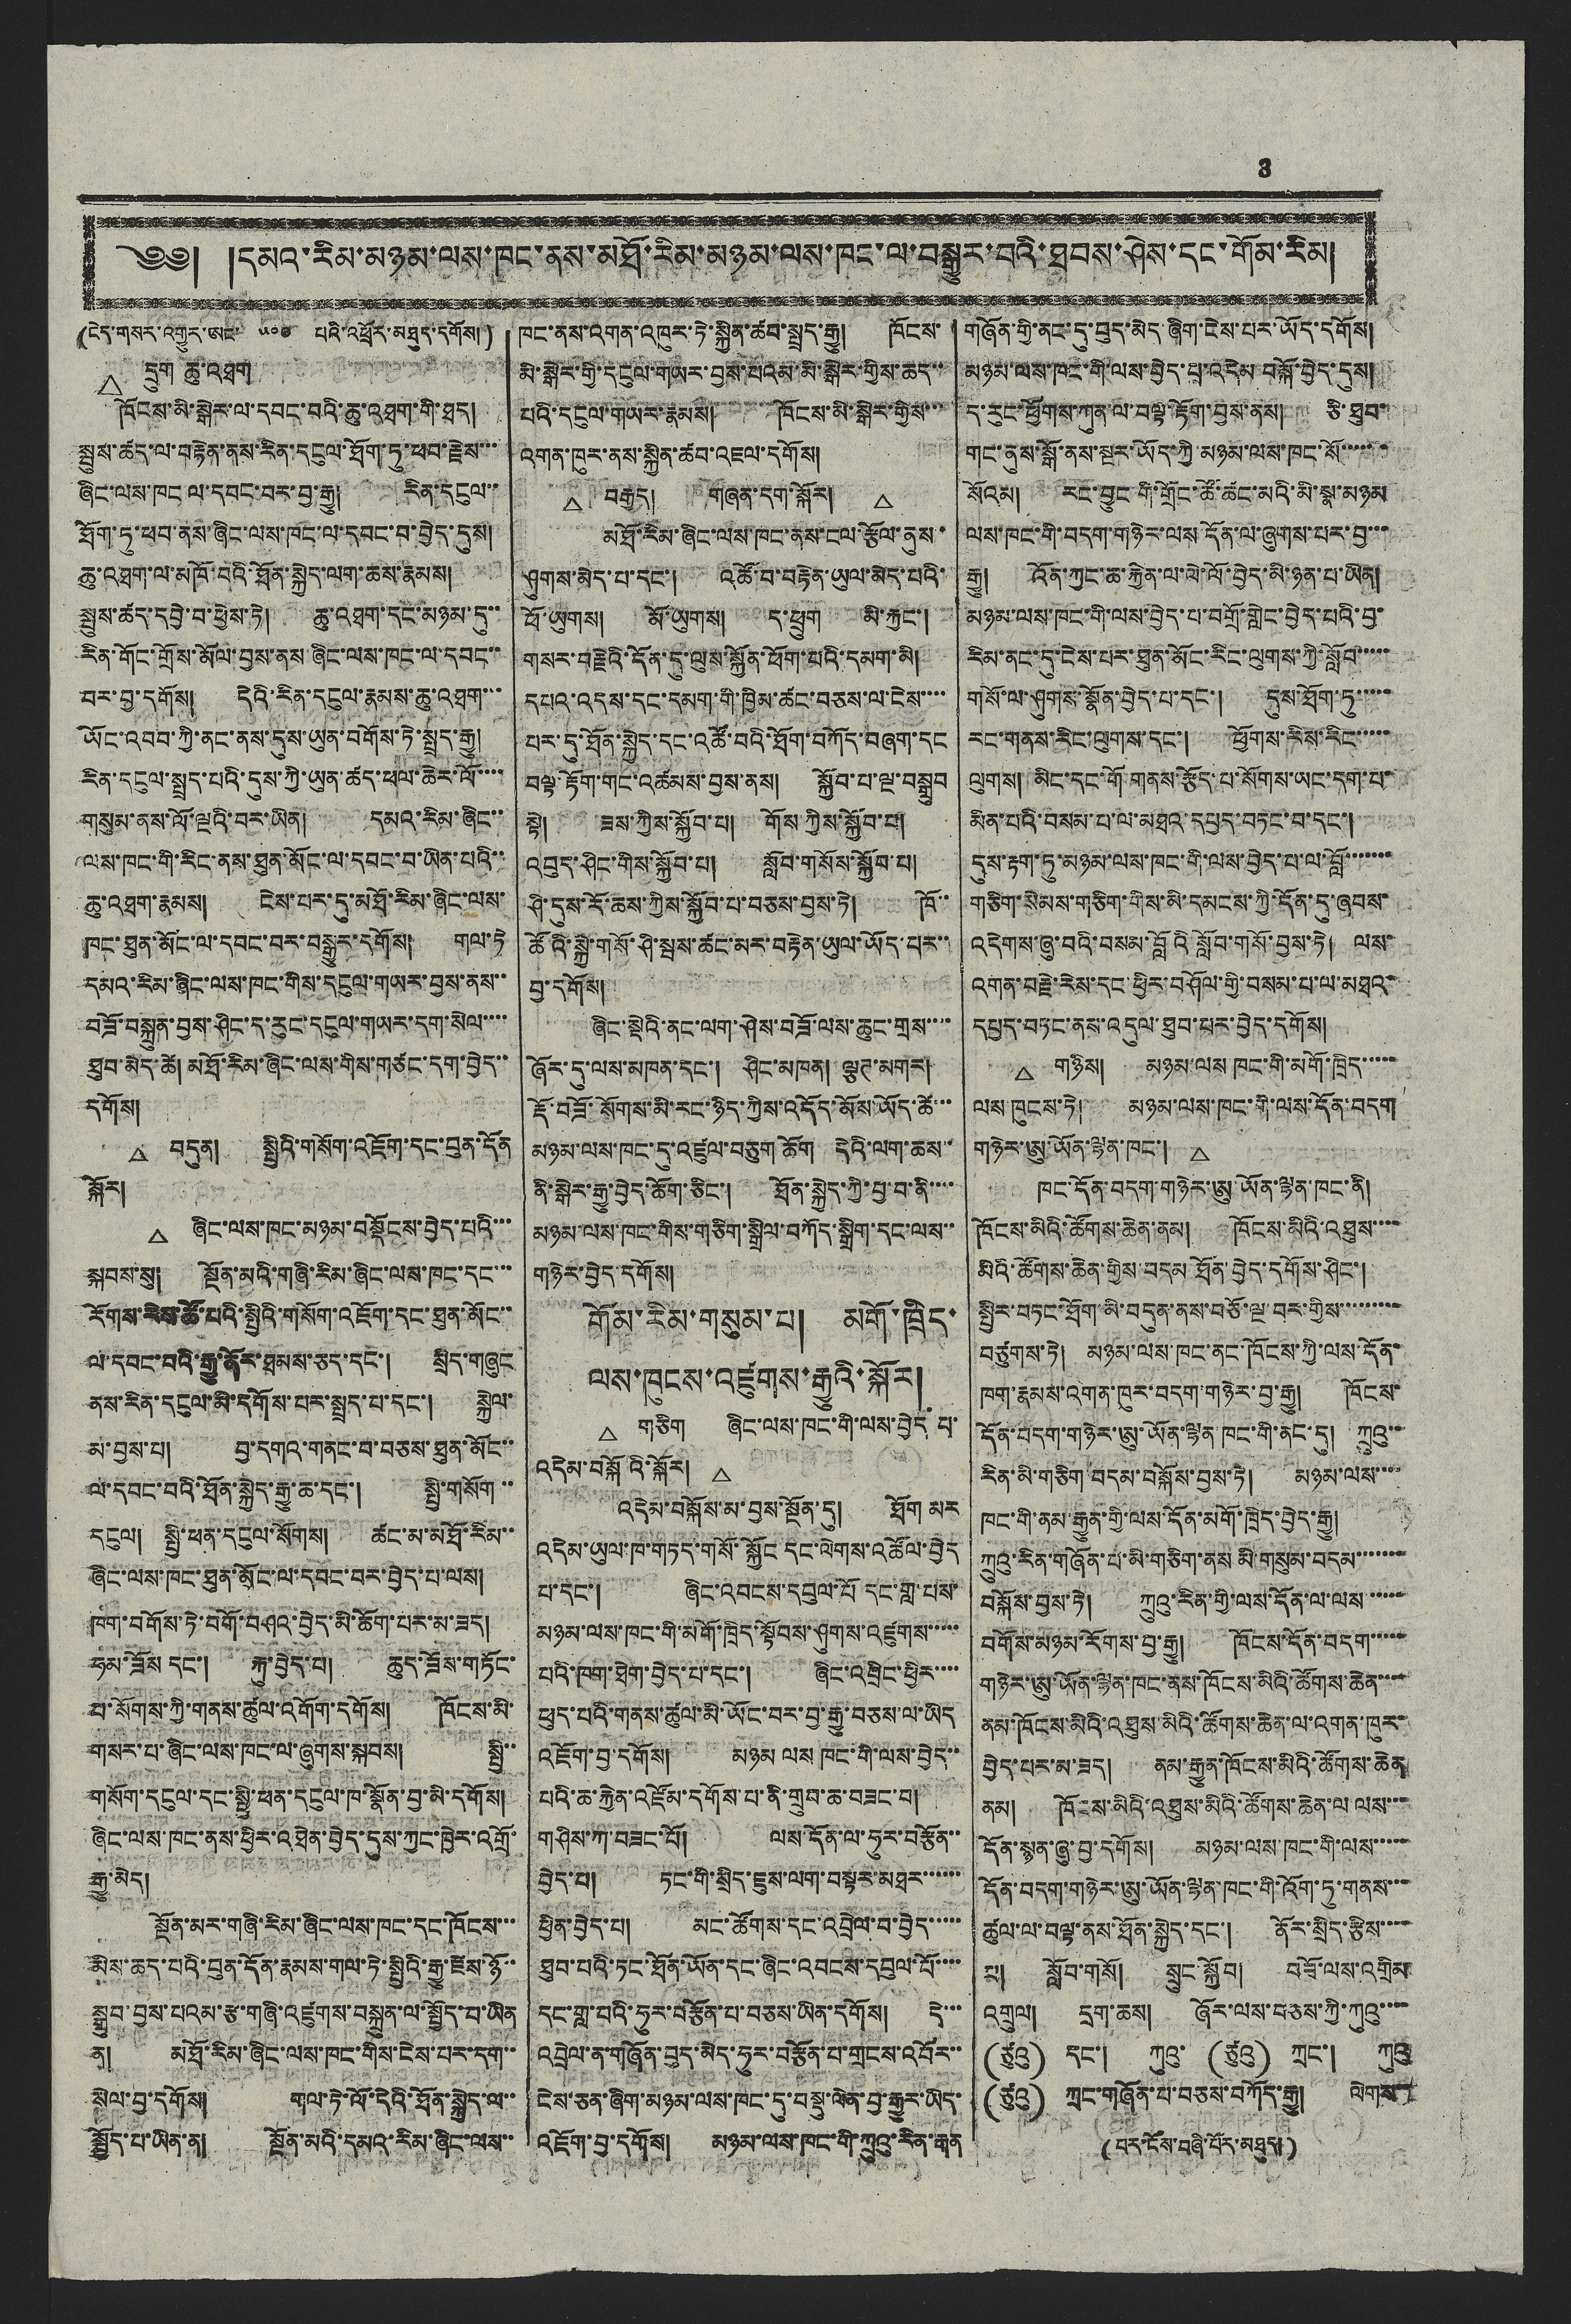3
༄༅། །དམའ་རིམ་མཉམ་ལས་ཁང་ནས་མཐོ་རིམ་མཉམ་ལས་ཁང་ལ་བསྒྱུར་བའི་ཐབས་ཤེས་དང་གོམ་རིམ།
(ངེད་གསར་འགྱུར་ཨང་ ༥༠༩ པའི་འཕྲོར་མཐུད་དགོས།)
△ དྲུག ཆུ་འཐག
ཁོངས་མི་སྒེར་ལ་དབང་བའི་ཆུ་འཐག་གི་ཐད།
སྤུས་ཚད་ལ་བརྟེན་ནས་རིན་དངུལ་ཐོག་ཏུ་ཕབ་རྗེས་་་
ཞིང་ལས་ཁང་ལ་དབང་བར་བྱ་རྒྱུ། རིན་དངུལ་
ཐོག་ཏུ་ཕབ་ནས་ཞིང་ལས་ཁང་ལ་དབང་བ་བྱེད་དུས།
ཆུ་འཐག་ལ་མཁོ་བའི་ཐོན་སྐྱེད་ལག་ཆས་རྣམས།
སྤུས་ཚད་དབྱེ་བ་ཕྱེས་ཏེ། ཆུ་འཐག་དངོ་མཉམ་དུ་་
རིན་གོང་གྲོས་མོལ་བྱས་ནས་ཞིང་ལས་ཁང་ལ་དབང་་
བར་བྱ་དགོས། དེའི་རིན་དངུལ་རྣམས་ཆུ་འཐག་་་
ཡོང་འབབ་ཀྱི་ནང་ནས་དུས་ཡུན་བགོས་ཏེ་སྤྲད་རྒྱུ།
རིན་དངུལ་སྤྲད་པའི་དུས་ཀྱི་ཡུན་ཚད་ཕལ་ཆེར་ལོ་་་་
གསུམ་ནས་ལོ་ལྔའི་བར་ཡིན། དམའ་རིམ་ཞིང་་
ལས་ཁང་གི་རིང་ནས་ཐུན་མོང་ལ་དབང་བ་ཡིན་པའི་་
ཆུ་འཐག་རྣམས། ངེས་པར་དུ་མཐོ་རིམ་ཞིང་ལས་
ཁང་ཐུན་མོང་ལ་དབང་བར་བསྒྱུར་དགོས། གལ་ཏེ
དམའ་རིམ་ཞིང་ལས་ཁང་གིས་དངུལ་གཡར་བྱས་ནས་་
བཟོ་བསྐྲུན་བྱས་ཤིང་ད་རུང་དངུལ་གཡར་དག་སེལ་་་་
ཐུབ་མེད་ཚེ། མཐོ་རིམ་ཞིང་ལས་གིས་གཙང་དག་བྱེད་་
དགོས།
△ བདུན། སྤྱིའི་གསོག་འཇོག་དང་བུན་དོན
སྐོར།
△ ཞིང་ལས་ཁང་མཉམ་བསྡོངས་བྱེད་པའི་་་
སྐབས་སུ། སྔོན་མའི་གཞི་རིམ་ཞིང་ལས་ཁང་དང་་་
རོགས་རིས་ཚོ་པའི་སྤྱིའི་གསོག་འཇོག་དང་ཐུན་མོང་་
ལ་དབང་བའི་རྒྱུ་ནོར་ཐམས་ཅད་དང་། སྲིད་གཞུང
ནས་རིན་དངུལ་མི་དགོས་པར་སྤྲད་པ་དང་། སྐྱེལ་
མ་བྱས་པ། བྱ་དགའ་གནང་བ་བཅས་ཐུན་མོང་་
ལ་དབང་བའི་ཐོན་སྐྱེད་རྒྱུ་ཆ་དང་། སྤྱི་གསོག་་
དངུལ། སྤྱི་ཕན་དངུལ་སོགས། ཚང་མ་མཐོ་རིམ་་
ཞིང་ལས་ཁང་ཐུན་མོང་ལ་དབང་བར་བྱེད་པ་ལས།
ཁག་བགོས་ཏེ་བགོ་བཤའ་བྱེད་མི་ཆོག་པར་མ་ཟད།
ཧམ་ཟོས དང་། རྐུ་བྱེད་པ། ཆུད་ཟོས་གཏོང་
པ་སོགས་ཀྱི་གནས་ཚུལ་འགོག་དགོས། ཁོངས་མི་
གསར་པ་ཞིང་ལས་ཁང་ལ་ཞུགས་སྐབས། སྤྱི་་
གསོག་དངུལ་དང་སྤྱི་ཕན་དངུལ་ཁ་སྣོན་བྱ་མི་དགོས།
ཞིང་ལས་ཁང་ནས་ཕྱིར་འཐེན་བྱེད་དུས་ཀྱང་ཁྱེར་འགྲོ་
རྒྱུ་མེད།
སྟོན་མར་གཞི་རིམ་ཞིང་ལས་ཁང་དང་ཁོངས་་་
མིས་ཆད་པའི་བུན་དོན་རྣམས་གལ་ཏེ་སྤྱིའི་རྒྱུ་ཛེས་ཉོ་
སྒྲུབ་བྱས་པའམ་རྩ་གཞི་འཛུགས་བསྐྲུན་ལ་སྤྱོད་པ་ཡིན
ན། མཐོ་རིམ་ཞིང་ལས་ཁང་གིས་ངེས་པར་དག་་
སེལ་བྱ་དགོས། གལ་ཏེ་ལོ་དེའི་ཐོན་སྐྱེད་ལ་་
སྤྱོད་པ་ཡིན་ན། སྔོན་མའི་དམའ་རིམ་ཞིང་ལས་་
ཁང་ནས་འགན་འབུར་ཏེ་སྐྱིན་ཚབ་སྤྲད་རྒྱུ། ཁོངས་
མི་སྒེར་གྱི་དངུལ་གཡར་བྱས་པའམ་མི་སྒེར་གྱིས་ཚད་་
པའི་དངུལ་གཡར་རྣམས། ཁོངས་མི་སྒེར་གྱིས་་་
འགན་ཁུར་ནས་སྐྱིན་ཚབ་འཇལ་དགོས།
△ བརྒྱད། གཞན་དག་སྐོར། △
མཐོ་རིམ་ཞིང་ལས་ཁང་ནས་ངལ་རྩོལ་ནུས་
ཤུགས་མེད་པ་དང་། འཚོ་བ་བརྟེན་ཡུལ་མེད་པའི་
ཕོ་ཡུགས། མོ་ཡུགས། ད་ཕྲུག མི་རྐྱང་།
གསར་བརྗེའི་དོན་དུ་ལུས་སྐྱོན་ཕོག་པའི་དམག་མི།
དཔའ་འདས་དང་དམག་གི་ཁྱིམ་ཚང་བཅས་ལ་ངེས་་་་
པར་དུ་ཐོན་སྐྱེད་དང་འཚོ་བའི་ཐོག་བཀོད་བཞག་དང
བལྟ་རྟོག་གང་འཚམས་བྱས་ནས། སྐྱོབ་པ་ལྔ་བསྒྲུབ
སྟེ། ཟས་ཀྱིས་སྐྱོབ་པ། གོས་ཀྱིས་སྐྱོབ་པ།
འབུད་ཤིང་གིས་སྐྱོབ་པ། སློབ་གསོས་སྐྱོབ་པ།
ཤི་དུས་རོ་ཆས་ཀྱིས་སྐྱོབ་པ་བཅས་བྱས་ཏེ། ཁོ་་
ཚོའི་སྐྱེ་གསོ་ཤི་སྦས་ཚང་མར་བརྟེན་ཡུལ་ཡོད་པར་་
བྱ་དགོས།
ཞིང་སྡེའི་ནང་ལག་ཤེས་བཟོ་ལས་ཆུང་གྲས་་་་
ཞོར་དུ་ལས་མཁན་དང་། ཤིང་མཁན། ལྕཊ་མགར།
རྡོ་བཟོ་སོགས་མི་རང་ཉིད་ཀྱིས་འདོད་མོས་ཡོད་ཚེ་་
མཉམ་ལས་ཁང་དུ་འཛུལ་བཅུག ཆོག དེའི་ལག་ཆས་་
ནི་སྒེར་རྒྱུ་བྱེད་ཆོག་ཅིང་། ཐོན་སྐྱེད་ཀྱི་བྱ་བ་ནི་་་་
མཉམ་ལས་ཁང་གིས་གཅིག་སྒྲིལ་བཀོད་སྒྲིག་དང་ལས་
གཉེར་བྱེད་དགོས།
གོམ་རིམ་གསུམ་པ། མགོ་ཁྲིད་
ལས་ཁུངས་འཛུགས་རྒྱུའི་སྐོར།
△ གཅིག ཞིང་ལས་ཁང་གི་ལས་བྱེད པ་
འདེམ་བསྐོའི་སྐོར། △
འདེམ་བསྐོས་མ་བྱས་སྔོན་དུ། ཐོག མར
འདེམ་ཡུལ་ཁ་གཏད་གསོ་སྐྱོང་དང་ལེགས་འཚོལ་བྱེད
པ་དང་། ཞིང་འབངས་དབུལ་པོ་དང་གླ་པས་
མཉམ་ལས་ཁང་གི་མགོ་ཁྲིད་སྟོབས་ཤུགས་འཛུགས་་་་་
པའི་ཁག་ཐེག་བྱེད་པ་དང་། ཞིང་འབྲིང་ཕྱིར་་་་
ཕུད་པའི་གནས་ཚུལ་མི་ཡོང་བར་བྱ་རྒྱུ་བཅས་ལ་ཡིད
འཇོག་བྱ་དགོས། མཉམ ལས ཁང་གི་ལས་བྱེད་་
པའི་ཆ་རྐྱེན་འཛོམ་དགོས་པ་ནི་གྲུབ་ཆ་བཟང་བ།
གཤིས་ཀ་བཟང་པོ། ལས་དོན་ལ་ཧུར་བརྩོན་་
བྱེད་པ། ཏང་གི་སྲིད་ཇུས་ལག་བསྟར་མཐེར་་་་་་
ཕྱིན་བྱེད་པ། མང་ཚོགས་དང་འབྲེལ་བ་བྱེད་་་་་
ཐུབ་པའི་ཏང་ཐོན་ཡོན་དང་ཞིང་འབངས་དབུལ་པོ་་་་
དང་གླ་བའི་ཧུར་བརྩོན་པ་བཅས་ཡིན་དགོས། དེ་་་
འབྲེལ་ན་གཞོན་བྱད་མེད་ཧུར་བརྩོན་པ་གྲངས་འབོར་་
ངེས་ཅན་ཞིག་མཉམ་ལས་ཁང་དུ་བསྡུ་ལེན་བྱ་རྒྱུར་ཡིད་
འཇོག་བྱ་དགོས། མཉམ་ལས་ཁང་གི་ཀྲུའུ་རིན་རྒན་
གཞོན་གྱི་ནང་དུ་བྱེད་མེད་ཞིག་ངེས་པར་ཡོད་དགོས།
མཉམ་ལས་ཁང་གི་ལས་བྱེད་པ་འདེམ་བསྐོ་བྱེད་དུས།
ད་རུང་ཕྱོགས་ཀུན་ལ་བལྟ་རྟོག་བྱས་ནས། ཅི་ཐུབ་་
གང་ནུས་སྒོ་ནས་སྔར་ཡོད་ཀྱི་མཉམ་ལས་ཁང་སོ་་་་་་་
སོའམ། རང་བྱུང་གི་གྲོང་ཚོ་ཚང་མའི་མི་སྣ་མཉམ
ལས་ཁང་གི་བདག་གཉེར་ལས་དོན་ལ་ཞུགས་པར་བྱ་་
རྒྱུ། འོན་ཀྱང་ཆ་རྐྱེན་ལ་ལེ་ལོ་བྱེད་མི་ཉན་པ་ཡིན།
མཉམ་ལས་ཁང་གི་ལས་བྱེད་པ་བགྲོ་གླེང་བྱེད་པའི་བྱ་
རིམ་ནང་དུ་ངེས་པར་ཐུན་མོང་རིང་ལུགས་ཀྱི་སློབ་་་་
གསོ་ལ་ཤུགས་སྣོན་བྱེད་པ་དང་། དུས་ཐོག་ཏུ་་་་་་
རང་གནས་རིང་ལུགས་དང་། ཕྱོགས་རིས་རིང་་་་་
ལུགས། མིང་དང་གོ་གནས་རྩོད་པ་སོགས་ཡང་དག་པ་་
མིན་པའི་བསམ་པ་ལ་མཐའ་དཔྱད་བཏང་བ་དང་།
དུས་རྟག་ཏུ་མཉམ་ལས་ཁང་གི་ལས་བྱེད་པ་ལ་བློ་་་་་་་
གཅིག་སེམས་གཅིག་གིས་མི་དམངས་ཀྱི་དོན་དུ་ཞབས་
འདེགས་ཞུ་བའི་བསམ་བློའི་སློབ་གསོ་བྱས་ཏེ། ལས་
འགན་བརྗེ་རེས་དང་ཕྱིར་བཤོལ་གྱི་བསམ་པ་ལ་མཐའ་
དཔྱད་བཏང་ནས་འདུལ་ཐུབ་པར་བྱེད་དགོས།
△ གཉིས། མཉམ་ལས་ཁང་གི་མགོ་ཁྲིད་་་་་
ལས་ཁུངས་ཏེ། མཉམ་ལས་ཁང་གི་ལས་དོན་བདག
གཉེར་ཨུ་ཡོན་ལྷན་ཁང་། △
ཁང་དོན་བདག་གཉེར་ཨུ་ཡོན་ལྷན་ཁང་ནི།
ཁོངས་མིའི་ཚོགས་ཆེན་ནམ། ཁོངས་མིའི་འཐུས་་་་
མིའི་ཚོགས་ཆེན་གྱིས་བདམ་ཐོན་བྱེད་དགོས་ཤིང་།
སྤྱིར་བཏང་ཐོག་མི་བདུན་ནས་བཅོ་ལྔ་བར་གྱིས་་་་་་་་་
བཙུགས་ཏེ། མཉམ་ལས་ཁང་ནང་ཁོངས་ཀྱི་ལས་དོན་
ཁག་རྣམས་འགན་ཁུར་བདག་གཉེར་བྱ་རྒྱུ། ཁོངས་
དོན་བདག་གཉེར་ཨུ་ཡོན་ལྷན་ཁང་གི་ནང་དུ། ཀྲུའུ་་་
རིན་མི་གཅིག་བདམ་བསྐོས་བྱས་ཏེ། མཉམ་ལས་་་
ཁང་གི་ནམ་རྒྱུན་གྱི་ལས་དོན་མགོ་ཁྲིད་བྱེད་རྒྱུ།
ཀྲུའུ་རིན་གཞོན་པ་མི་གཅིག་ནས་མི་གསུམ་བདམ་་་་་་་
བསྐོས་བྱས་ཏེ། ཀྲུའུ་རིན་གྱི་ལས་དོན་ལ་ལས་་་་་་
བགོས་མཉམ་རོགས་བྱ་རྒྱུ། ཁོངས་དོན་བདག་་་་་
གཉེར་ཨུ་ཡོན་ལྷན་ཁང་ནས་ཁོངས་མིའི་ཚོགས་ཆེན་་་་
ནམ་ཁོངས་མིའི་འཐུས་མིའི་ཚོགས་ཆེན་ལ་འགན་ཁུར་
བྱེད་པར་མ་ཟད། ནམ་རྒྱུན་ཁོངས་མིའི་ཚོགས་ཆེན
ནམ། ཁོངས་མིའི་འཐུས་མིའི་ཚོགས་ཆེན་ལ་ལས་་་
དོན་སྙན་ཞུ་བྱ་དགོས། མཉམ་ལས་ཁང་གི་ལས་་་་་
དོན་བདག་གཉེར་ཨུ་ཡོན་ལྷན་ཁང་གི་འོག་ཏུ་གནས་་་
ཚུལ་ལ་བལྟ་ནས་ཐོན་སྐྱེད་དང་། ནོར་སྲིད་རྩིས་་་་
མ། སློབ་གསོ། སྲུང་སྐྱོབ། བཟོ་ལས་འགྲིམ
འགྲུལ། དྲག་ཆས། ཞོར་ལས་བཅས་ཀྱི་ཀུའུ་་་་
(ཙུའུ) དང་། ཀྲུའུ་ (ཙུའུ) ཀྲང་། ཀུའུ་
(ཙུའུ) ཀྲང་གཞོན་པ་བཅས་བཀོད་རྒྱུ། ལེགས་
(པར་ངོས་བཞི་པོར་མཐུད།)
